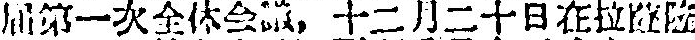届第一次全体会議，十二月二十日在拉薩隆
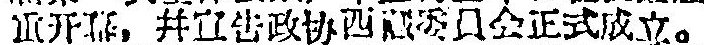重开幕，并宣告政协西藏委員会正式成立。
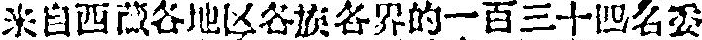来自西藏各地区各族各界的一百三十四名委
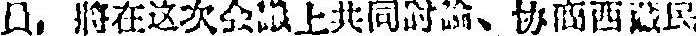員，將在这次会議上共同討論、协商西藏民
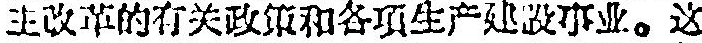主改革的有关政策和各項生产建設事业。这
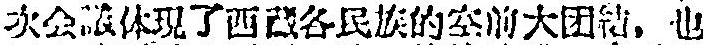次会議体現了西藏各民族的空前大团結，也
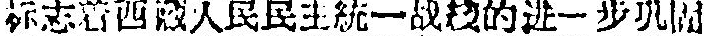标志着西藏人民民主統一战綫的进一步巩固
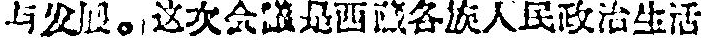与发展。这次会議是西藏各族人民政治生活
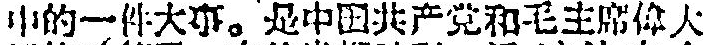中的一件大事。是中国共产党和毛主席偉大
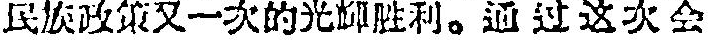民族政策又一次的光輝胜利。通过这次会
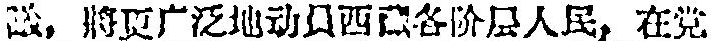議，將更广泛地动員西藏各阶层人民，在党
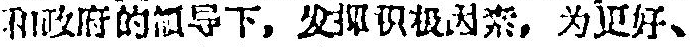和政府的領导下，发揮积极因素，为更好、
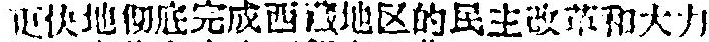更快地彻底完成西藏地区的民主改革和大力
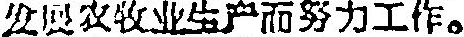发展农牧业生产而努力工作。
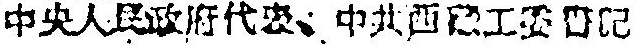中央人民政府代表、中共西藏工委書記
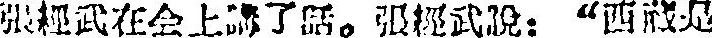張經武在会上講了話。張經武說：“西藏是
